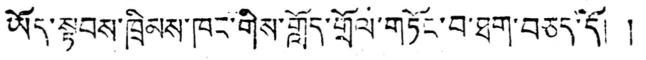ཡོད་སྟབས་ཁྲིམས་ཁང་གིས་གློད་གྲོལ་གཏོང་བ་ཐག་བཅད་དོ། །
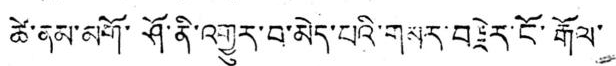ཚེ་ནམ་མགོ་ཤོ་ནི་འགྱུར་བ་མེད་པའི་གསར་བརྗེར་ངོ་རྒོལ་
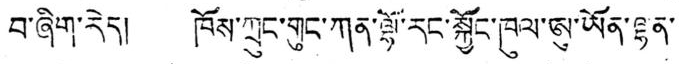བ་ཞིག་རེད། ཁོས་ཀྲུང་གུང་ཀན་ལྷོ་རང་སྐྱོང་ཁུལ་ཨུ་ཡོན་ལྷན་
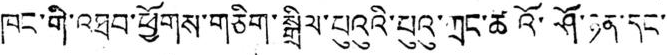ཁང་གི་འཐབ་ཕྱོགས་གཅིག་སྒྲིལ་པུའུའི་པུའུ་ཀྲང་ཚའོ་ཤོ་ཉན་དང་
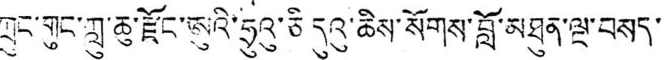ཀྲུང་གུང་ཀླུ་ཆུ་རྫོང་ཨུའི་ཧྲུའུ་ཅི དུའུ་ཆིས་སོགས་བློ་མཐུན་ལྔ་བསད་
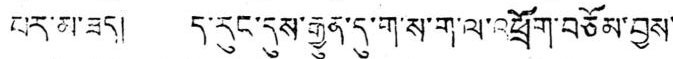པར་མ་ཟད། ད་རུང་དུས་རྒྱུན་དུ་ག་ས་ག་ལ་འཕྲོག་བཅོམ་བྱས་
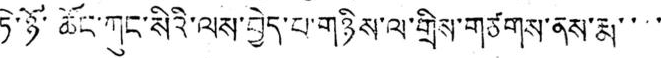ཏེ་ཉོ་ཆོང་ཀུང་སིའི་ལས་བྱེད་པ་གཉིས་ལ་གྲིས་གཙགས་ནས་རྨ་་་་
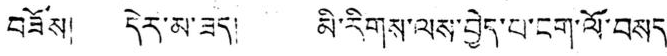བཟོས། དེར་མ་ཟད། མི་རིགས་ལས་བྱེད་པ་ངག་ལོ་བསད་
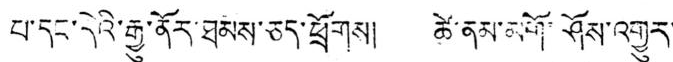པ་དང་དེའི་རྒྱུ་ནོར་ཐམས་ཅད་ཕྲོགས། ཚེ་ནམ་མགོ་ཤོས་འགྱུར་
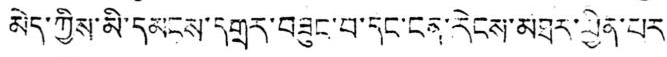མེད་ཀྱིས་མི་དམངས་དགྲར་བཟུང་བ་དང་ངན་རེངས་མཐར་ཕྱིན་པར་
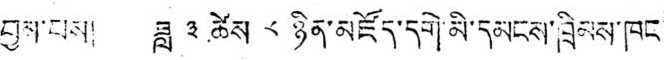བྱས་པས། ཟླ ༣ ཚེས ༨ ཉིན་མཛོད་དགེ་མི་དམངས་ཁྲིམས་ཁང་
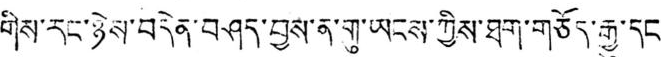གིས་རང་ཉེས་བདེན་བཤད་བྱས་ན་གུ་ཡངས་ཀྱིས་ཐག་གཅོད་རྒྱུ་དང་
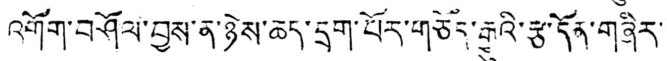འགོག་བཤོལ་བྱས་ན་ཉེས་ཆད་དྲག་པོར་གཅོད་རྒྱུའི་རྩ་དོན་གཞིར་་
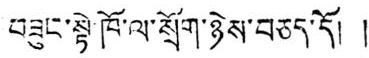བཟུང་སྟེ་ཁོ་ལ་སྲོག་ཉེས་བཅད་དོ། །
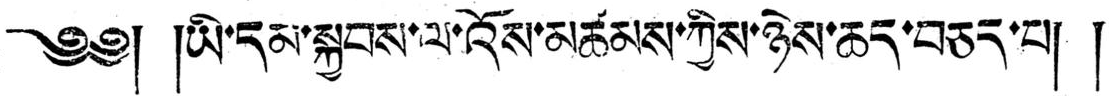༄༅། །ཡི་དམ་སྐྱབས་ལ་འོས་མཚམས་ཀྱིས་ཉེས་ཆད་བཅད་པ། །
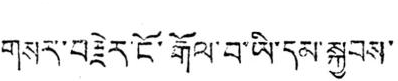གསར་བརྗེར་ངོ་རྒོལ་བ་ཡི་དམ་སྐྱབས་
